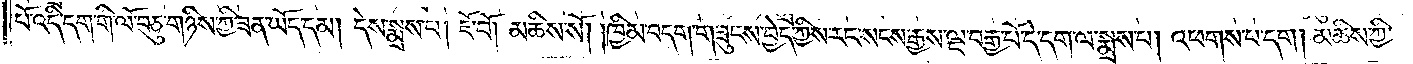པོ་འདི་དག་གི་ལོ་བཅུ་གཉིས་ཀྱི་ཟན་ཡོད་དམ། དེས་སྨྲས་པ། ཇོ་བོ། མཆིས་སོ། །ཁྱིམ་བདག་གཟུངས་བྱེད་ཀྱིས་རང་སངས་རྒྱས་ལྔ་བརྒྱ་པོ་དེ་དག་ལ་སྨྲས་པ། འཕགས་པ་དག །མཆིས་ཀྱི་
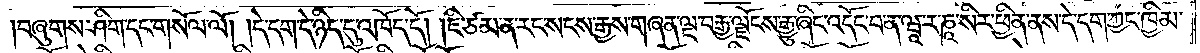བཞུགས་ཤིག་དང་གསོལ་ལོ། །དེ་དག་དེ་ཉིད་དུ་འཁོད་དོ། །ཇི་ཙམ་ན་རང་སངས་རྒྱས་གཞན་ལྔ་བརྒྱ་ལྗོངས་རྒྱུ་ཞིང་འདོང་བ་ན་ཝཱ་ར་ཎཱ་སིར་ཕྱིན་ནས་དེ་དག་ཀྱང་ཁྱིམ་
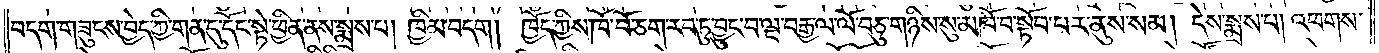བདག་གཟུངས་བྱེད་ཀྱི་གན་དུ་དོང་སྟེ་ཕྱིན་ནས་སྨྲས་པ། ཁྱིམ་བདག། ཁྱོད་ཀྱིས་ཁོ་བོ་ཅག་རབ་ཏུ་བྱུང་བ་ལྔ་བརྒྱ་ལ་ལོ་བཅུ་གཉིས་སུ་མཁོ་བ་སྟོབ་པར་ནུས་སམ། དེས་སྨྲས་པ། འཕགས་
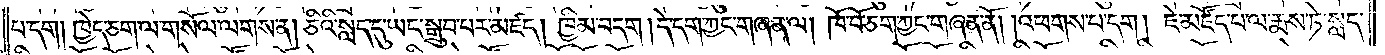པ་དག། ཁྱེད་ཅག་ལ་གསོལ་ལགས་ན། ཅིའི་སླད་དུ་ཡང་སྒྲུབ་པར་མཛད། ཁྱིམ་བདག །དེ་དག་ཀྱང་གཞན་ལ། ཁོ་བོ་ཅག་ཀྱང་གཞན་ནོ། །འཕགས་པ་དག། ཇེ་མཛོད་པ་ལ་རྨས་ཏེ་སླད་
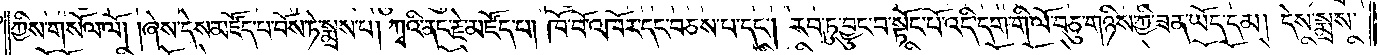ཀྱིས་གསོལ་ལོ། །ཞེས་དེས་མཛོད་པ་བོས་ཏེ་སྨྲས་པ། ཀྭའི་ནང་རྗེ་མཛོད་པ། ཁོ་བོ་འཁོར་དང་བཅས་པ་དང༌། རབ་ཏུ་བྱུང་བ་སྟོང་པོ་འདི་དག་གི་ལོ་བཅུ་གཉིས་ཀྱི་ཟན་ཡོད་དམ། དེས་སྨྲས་
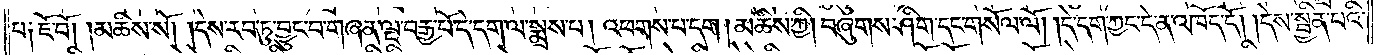པ༑ ཇོ་བོ། །མཆིས་སོ། །དེས་རབ་ཏུ་བྱུང་བ་གཞན་ལྔ་བརྒྱ་པོ་དེ་དག་ལ་སྨྲས་པ། འཕགས་པ་དག །མཆིས་ཀྱི། བཞུགས་ཤིག་དང་གསོལ་ལོ། །དེ་དག་ཀྱང་དེ་ན་འཁོད་དོ། །དེས་སྦྱིན་པའི་
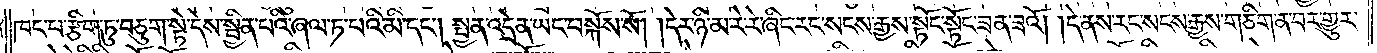ཁང་པ་རྩིག་ཏུ་བཅུག་སྟེ་དེས་སྦྱིན་པའི་ཞལ་ཏ་པའི་མི་དང༌། སྤྱན་འདྲེན་ཡང་བསྐོས་སོ། །དེར་ཉི་མ་རེ་རེ་ཞིང་རང་སངས་རྒྱས་སྟོང་སྟོང་ཟན་ཟའོ། །དེ་ནས་རང་སངས་རྒྱས་གཅིག་ན་བར་གྱུར་
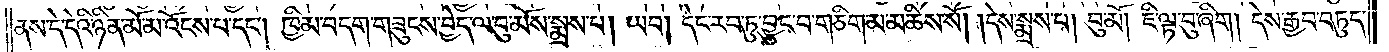ནས་དེ་དེའི་ཉིན་མོ་མ་འོངས་པ་དང༌། ཁྱིམ་བདག་གཟུངས་བྱེད་ལ་བུ་མོས་སྨྲས་པ། ཡབ། དེང་རབ་ཏུ་བྱུང་བ་གཅིག་མ་མཆིས་སོ། །དེས་སྨྲས་པ། བུ་མོ། ཇི་ལྟ་བུ་ཞིག། དེས་རྒྱབ་བཏུད་
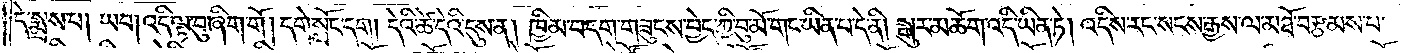དེ་སྨྲས་པ། ཡབ། འདི་ལྟ་བུ་ཞིག་གོ །དགེ་སློང་དག །དེའི་ཚེ་དེའི་དུས་ན། ཁྱིམ་བདག་གཟུངས་བྱེད་ཀྱི་བུ་མོ་གང་ཡིན་པ་དེ་ནི། སྒུར་མཆོག་འདི་ཡིན་ཏེ། འདིས་རང་སངས་རྒྱས་ལ་མཐོ་བརྩམས་པ་
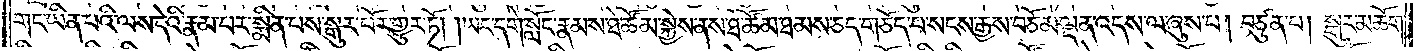གང་ཡིན་པའི་ལས་དེའི་རྣམ་པར་སྨིན་པས་སྒུར་པོར་གྱུར་ཏོ། །ཡང་དགེ་སློང་རྣམས་ཐེ་ཚོམ་སྐྱེས་ནས་ཐེ་ཚོམ་ཐམས་ཅད་གཅོད་པ་སངས་རྒྱས་བཅོམ་ལྡན་འདས་ལ་ཞུས་པ། བཙུན་པ། སྒུར་མཆོག་
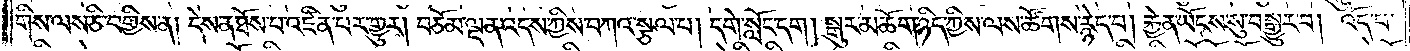གིས་ལས་ཅི་བགྱིས་ན། དེས་ན་ཐོས་པ་འཛིན་པར་གྱུར། བཅོམ་ལྡན་འདས་ཀྱིས་བཀའ་སྩལ་པ། དགེ་སློང་དག །སྒུར་མཆོག་ཉིད་ཀྱིས་ལས་ཚོགས་རྙེད་པ། རྐྱེན་ཡོངས་སུ་བསྒྱུར་བ། འོད་པ་
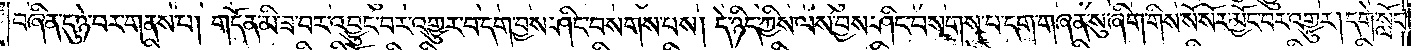བཞིན་དུ་ཉེ་བར་གནས་པ། གདོན་མི་ཟ་བར་འབྱུང་བར་འགྱུར་བ་དག་བྱས་ཤིང་བསགས་པས། དེ་ཉིད་ཀྱིས་ལས་བྱས་ཤིང་བསགས་པ་དག་གཞན་སུ་ཞིག་གིས་སོ་སོར་མྱོང་བར་འགྱུར། དགེ་སློང་
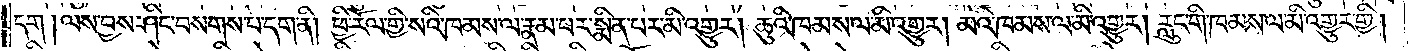དག །ལས་བྱས་ཤིང་བསགས་པ་དག་ནི། ཕྱི་རོལ་གྱི་སའི་ཁམས་ལ་རྣམ་པར་སྨིན་པར་མི་འགྱུར། ཆུའི་ཁམས་ལ་མི་འགྱུར། མེའི་ཁམས་ལ་མི་འགྱུར། རླུང་གི་ཁམས་ལ་མི་འགྱུར་གྱི།
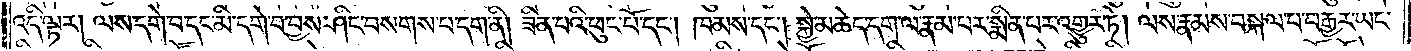འདི་ལྟར། ལས་དགེ་བ་དང་མི་དགེ་བ་བྱས་ཤིང་བསགས་པ་དག་ནི། ཟིན་པའི་ཕུང་པོ་དང༌། ཁམས་དང༌། སྐྱེ་མཆེད་དག་ལ་རྣམ་པར་སྨིན་པར་འགྱུར་ཏེ། ལས་རྣམ་བསྐལ་པ་བརྒྱར་ཡང་
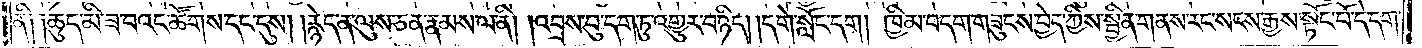ནི༑ ༑ཆུད་མི་ཟ་བའང་ཚོགས་དང་དུས། །རྙེད་ན་ལུས་ཅན་རྣམས་ལ་ནི། །འབྲས་བུ་དག་ཏུ་འགྱུར་བ་ཉིད། །དགེ་སློང་དག །ཁྱིམ་བདག་གཟུངས་བྱེད་ཀྱིས་སྦྱིན་གནས་རང་སངས་རྒྱས་སྟོང་པོ་དེ་དག་
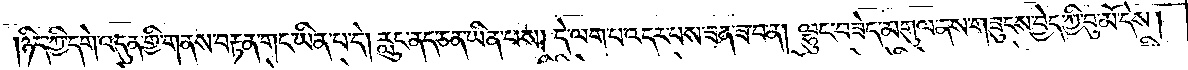ཉིད་ཀྱི་དགེ་འདུན་གྱི་གནས་བརྟན་གང་ཡིན་པ་དེ། རླུང་ནད་ཅན་ཡིན་པས། དེ་ལག་པ་འདར་པས་ཟན་ཟ་བ་ན། ལྷུང་བཟེད་མགུལ་ནས་གཟུངས་བྱེད་ཀྱི་བུ་མོ་དེས།
